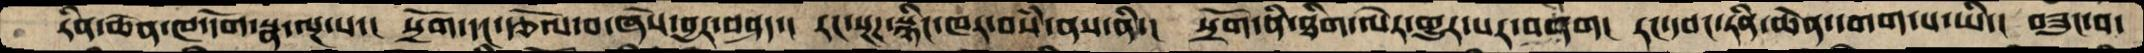རིན་ཆེན་ཁ་དོག་སྣ་ལྔ་པ་།  སྲོག་དང་རྩོལ་བ་ཞེས་བྱར་བཤད་།  རང་སྔཌ་སྙིང་ཁར་བསཾ་ནས་ནི་། སྲོག་ནི་ཐིག་ལེར་གྱུར་པར་བཤིག། རང་དབང་རིན་ཆེན་དགག་པ་ཡི་།  བཟུང་བ་
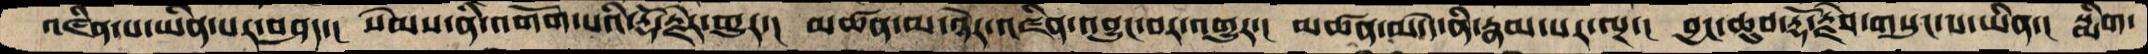འཛིན་པ་ཡིན་པར་བཤད་།  སེམས་ནི་འགོག་པའི་རྡོ་རྗེར་གྱུར་།  མཚན་མ་ཉེར་འཛིན་འབྱུང་བར་འགྱུར་། མཚན་མ་དེ་ནི་རྣམ་པར་ལྔ་། བྱང་ཆུབ་རྡོ་རྗེས་གསུང་པ་ཡིན་། སྨིག་
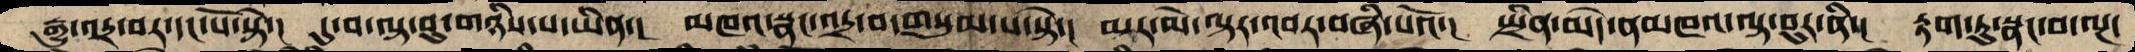རྒྱུ་འདྲ་བར་དང་པོ་སྟེ་།  དུ་བ་ལྟ་བུ་གཉིས་པ་ཡིན་།  མཁའ་སྣང་འདྲ་བ་གསུམ་པ་སྟེ་།  མར་མེ་ལྟར་འབར་བཞི་པའོ་།  སྤྲིན་མེད་ནམཁའ་ལྟ་བུར་ནི་།  རྟག་ཏུ་སྣང་བ་ལྔ་
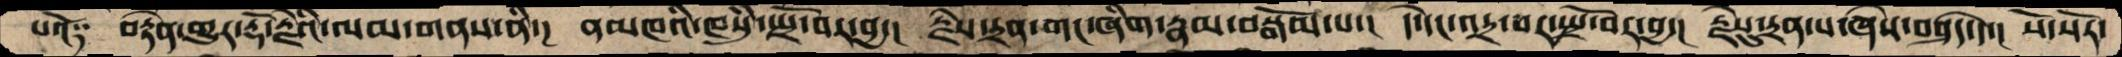པའོ༑  བརྟེན་གྱུར་རྡོ་རྗེའི་ལམ་གནས་ནི་།  ནམཁའི་ཁསུཾ་སྤྲོ་བར་བྱ་།  རྗེས་དྲན་གང་ཞིག་རྣམ་བསྒོམ་པ་།  དེ་དང་འདྲ་བར་སྤྲོ་བར་བྱ་ རྗེསུ་དྲན་པ་ཞེས་བཤད་དེ་། སོ་སོར་
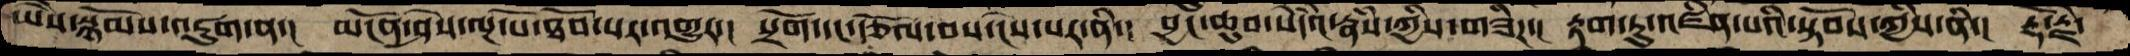ཡཻས་སྙོམས་འཇུག་ན་།  མངོན་ཤེས་ལྔ་པོ་ཐོབ་པར་འགྱུར་།  སྲོག་དང་རྩོལ་བས་ངེས་པར་ནི་།  བྱང་ཆུབ་སེདཾའ་རྣཾས་ཀྱིས་གཟིཌ་།  རྟག་ཏུ་འཛིན་པའི་སྟོབས་ཀྱིས་ནི་།  རྡོ་རྗེ་
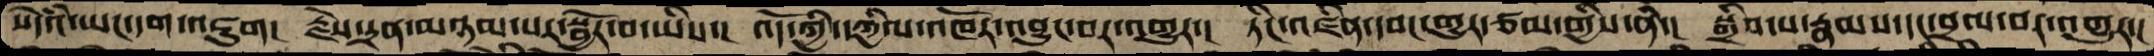སེདཾའ་ཡང་དག་འཇུག།  རྗེས་དྲན་མཉམ་པར་སྦྱོར་བ་ཡིས་།  འོད་ཀྱི་དཀྱིལ་འཁོར་འབྱུང་བར་འགྱུར་།  ཏིང་འཛིན་དབང་གྱུར་ཙམ་གྱིས་ནི་།  སྒྲིབ་པ་རྣམས་དང་བྲལ་བར་འགྱུར་།
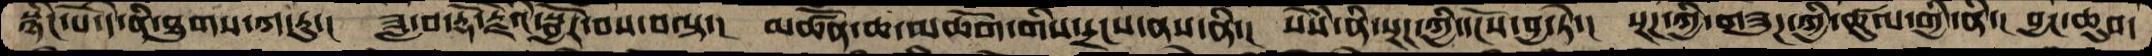སྙིང་པོོ་དེ་ནི་ཐུགས་ཀ་རུ་།  ཟླ་བ་རྡོ་རྗེའི་སྦྱོར་བས་བལྟ་།  མཚོན་ཆ་མཆོག་གིས་དྲངས་ནས་ནི་།  སེཾས་ནི་སྔཌ་ཀྱི་དངོས་བྱ་ཏེ་།  སྔཌ་ཀྱི་གཟུཌ་ཀྱི་ཚུལ་གྱི་ནི་།  བྱང་ཆུབ་
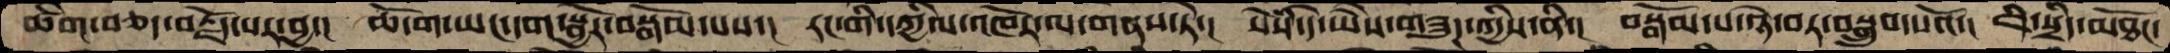ཚིག་བཅད་བརྗོད་པར་བྱ་།  ཆོ་ག་ཡང་དག་སྦྱོར་བསྒོམ་པས་།  རང་གི་དཀྱིལ་འཁོར་ལ་གནས་ཏེ་།  སེཾས་དེ་ཡཻས་གཟུཌ་ཀྱིས་ནི་།  བསྒོམ་པ་ཉེ་བར་བསྒྲུབ་པའོ་།  ཇི་སྲིད་མཐོང་
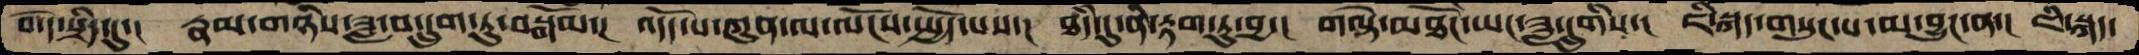བ་དེ་སྲིད་དུ་།  རྣམ་གཉིས་ཟླ་བ་དྲུག་ཏུ་བསྒོམ་།  འདོད་པ་ཀུན་ལ་ལོངས་སྤྱོད་པས་།  ཐཾད་དུ་ནི་རྟག་ཏུ་བྱ་།  གལྟེ་མཐོང་ཡང་ཟླ་དྲུགིས་།  ཇི་སྐད་གསུང་པ་མ་བྱུང་ན་།  ཇི་སྐད་
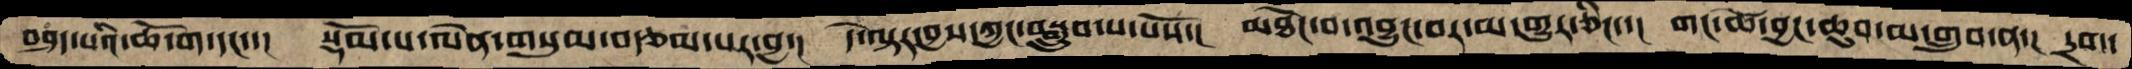བཤང་པའི་ཆོ་ག་དང་་།  སྡོམ་པ་ལེན་གསུམ་བརྩམ་པར་བྱ་།  དེ་ལྟར་བྱས་ཀྱང་བསྒྲུབ་པ་པོས་།  མཐོང་བ་འབྱུང་བར་མ་གྱུར་ཅིང་་།  གང་ཚེ་བྱང་ཆུབ་མ་གྲུབ་ན་།  དྲག་
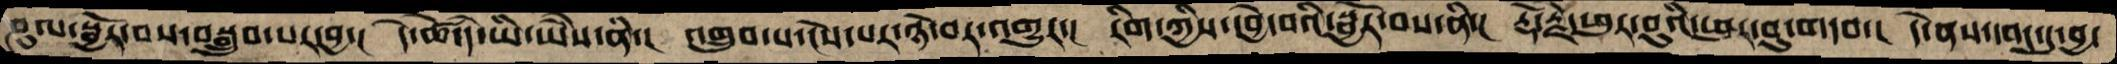ཤུལ་སྦྱོར་བས་བསྒྲུབ་པར་བྱ་།  དེ་ཚེ་དེ་ཡི་ཡཻས་ནི་།  འགྲུབ་པ་ངེས་པར་ཉེ་བར་འགྱུར་།  རིག་ཀྱིས་དབྱེ་བའི་སྦྱོར་བས་ནི་།  རྡོ་རྗེ་ཕུར་བུའི་ཕུར་བུ་གདབ་།  དེ་ནས་དབང་དུ་བྱ་
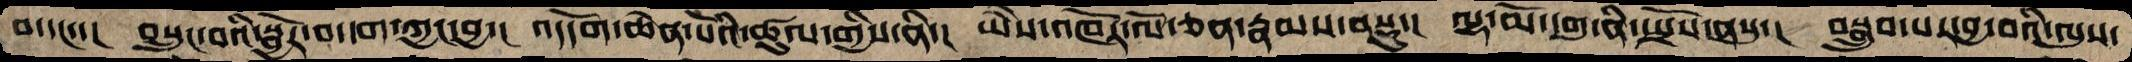བ་དང་་།  བསྲུང་བའི་སྦྱོར་བ་དག་ཀྱང་བྱ་།  འདདོག་ཆེན་པོའི་ཚུལ་གྱིས་ནི་།  ཡཻས་འཁོར་ལོ་ཅན་རྣམས་བསྡུ་།  ལྷ་མོ་དགུ་ནི་སྤྲོས་ནསུ་།  བསྒྲུབ་པར་བྱ་བའི་ལུས་
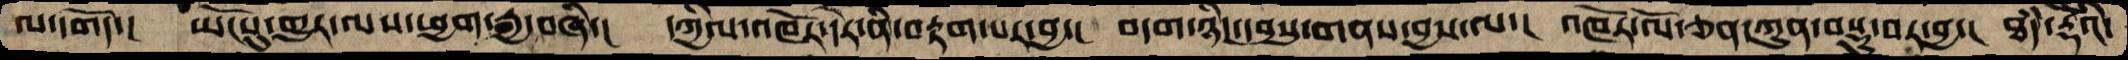ལ་དགོད་།  ཡོངསུ་གྱུར་ལས་ཕྱག་རྒྱ་བཞི་།  དཀྱིལ་འཁོར་དེར་ནི་བརྟག་པར་བྱ་།  བདག་ཉིད་དབུསུ་གནས་བྱས་ལ་།  འཁོར་ལོ་ཅན་ཀུན་བསྡུ་བར་བྱ་།  ཐཾད་རྡོེའི་
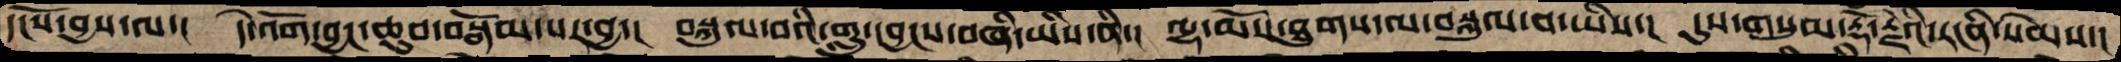དངོས་བྱས་ལ་།  དེ་འོག་བྱང་ཆུབ་བསྒོམ་པར་བྱ་།  བསྐུལ་བའི་གླུ་དབྱངས་བཞི་ཡིས་ནི་།  ལྷ་མོས་ཐུགས་ལ་བསྐུལ་བ་ཡིས་།  དུས་གསུམ་རྡོ་རྗེའི་རངནི་སེམས་།
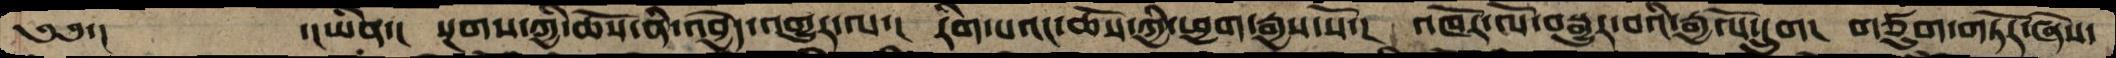༄༅་།    ་།ཡིན་།  སྔགས་ཀྱི་ཆོས་ནི་འབྱེད་འགྱུར་ལ་།  རིག་པའང་ཆོས་ཀྱི་ཕྱག་རྒྱས་སོ་།  འཁོར་ལོ་བསྒྱུར་བའི་རྒྱལོ་དྲུག།  གཙུག་གཏོར་ཞེས་
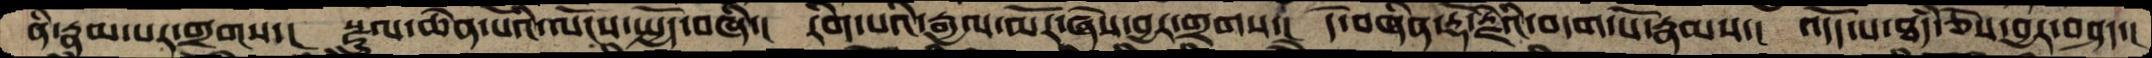ནི་རྣམ་པར་གྲགས་།  སྫྲུལ་ཆེན་པོའི་ལོངས་སྤྱོད་བཞི་།  རིག་པའི་རྒྱལ་མོར་ཞེས་བྱར་གྲགས་།  དེ་བཞིན་རྡོ་རྗེའི་བདག་པོ་རྣམས་།  འདོད་པ་ཐཾད་ཅེས་བྱར་བཤད་།
